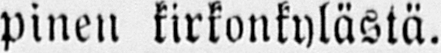pinen kirkonkylästä.
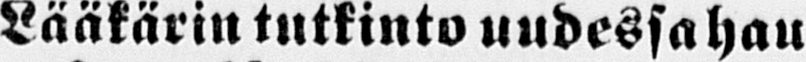Lääkärin tutkinto uudessahau-
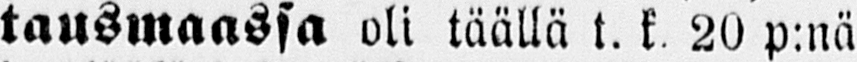tausmaassa oli täällä t. k. 20 p:nä
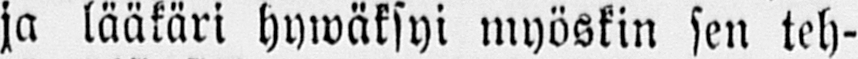ja lääkäri hywäksyi myöskin sen teh-
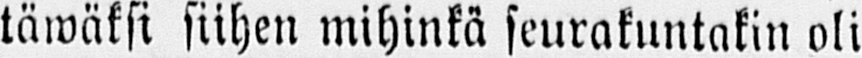täwäksi siihen mihinkä seurakuntakin oli
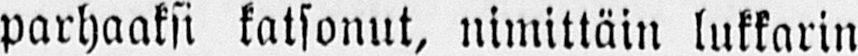parhaaksi katsonut, nimittäin lukkarin
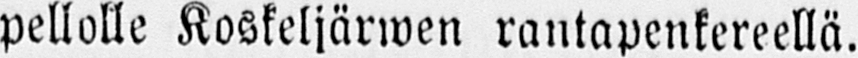pellolle Koskeljärwen rantapenkereellä.
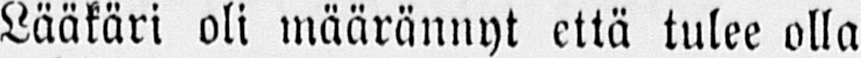Lääkäri oli määrännyt että tulee olla
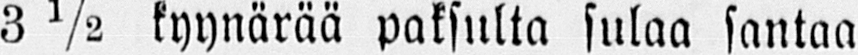3½ kyynärää paksulta sulaa santaa
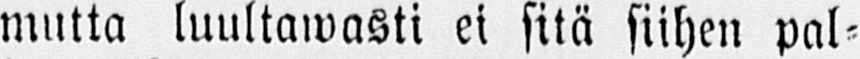mutta luultawasti ei sitä siihen pal-
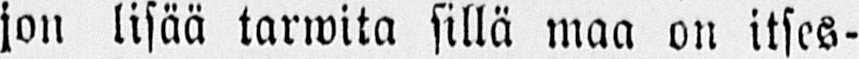jon lisää tarwita sillä maa on itses-
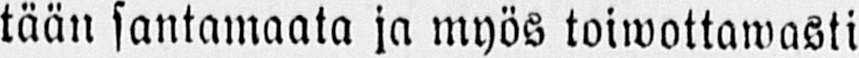tään santamaata ja myös toiwottawasti
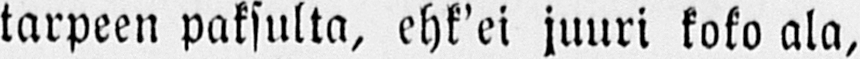tarpeen paksulta, ehk'ei juuri koko ala,
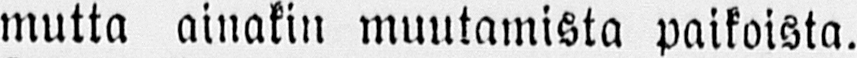mutta ainakin muutamista paikoista.
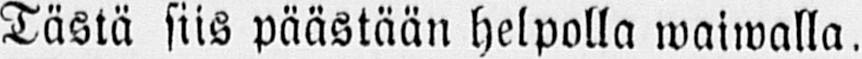Tästä siis päästään helpolla waiwalla.
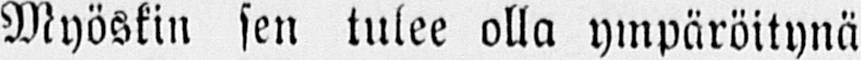Myöskin sen tulee olla ympäröitynä
